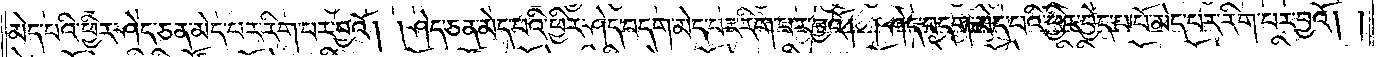མེད་པའི་ཕྱིར་ཤེད་ཅན་མེད་པར་རིག་པར་བྱའོ། །ཤེད་ཅན་མེད་པའི་ཕྱིར་ཤེད་བདག་མེད་པར་རིག་པར་བྱའོ། །ཤེད་བདག་མེད་པའི་ཕྱིར་བྱེད་པ་པོ་མེད་པར་རིག་པར་བྱའོ། །
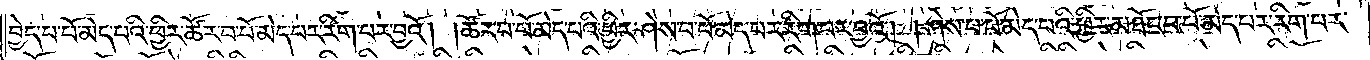བྱེད་པ་པོ་མེད་པའི་ཕྱིར་ཚོར་བ་པོ་མེད་པར་རིག་པར་བྱའོ། །ཚོར་བ་པོ་མེད་པའི་ཕྱིར་ཤེས་པ་པོ་མེད་པར་རིག་པར་བྱའོ། །ཤེས་པ་པོ་མེད་པའི་ཕྱིར་མཐོང་བ་པོ་མེད་པར་རིག་པར་
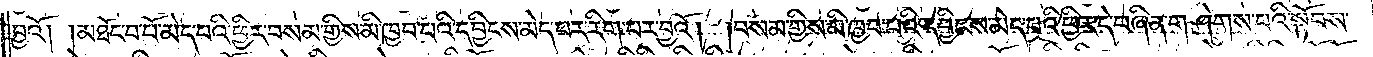བྱའོ། །མཐོང་བ་པོ་མེད་པའི་ཕྱིར་བསམ་གྱིས་མི་ཁྱབ་པའི་དབྱིངས་མེད་པར་རིག་པར་བྱའོ། །བསམ་གྱིས་མི་ཁྱབ་པའི་དབྱིངས་མེད་པའི་ཕྱིར་དེ་བཞིན་གཤེགས་པའི་སྟོབས་
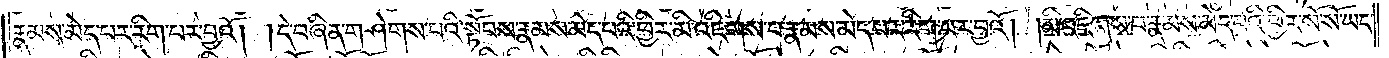རྣམས་མེད་པར་རིག་པར་བྱའོ། །དེ་བཞིན་གཤེགས་པའི་སྟོབས་རྣམས་མེད་པའི་ཕྱིར་མི་འཇིགས་པ་རྣམས་མེད་པར་རིག་པར་བྱའོ། །མི་འཇིགས་པ་རྣམས་མེད་པའི་ཕྱིར་སོ་སོ་ཡང་
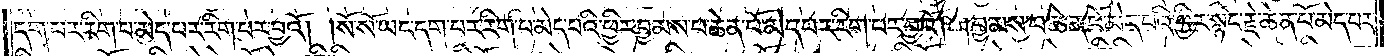དག་པར་རིག་པ་མེད་པར་རིག་པར་བྱའོ། །སོ་སོ་ཡང་དག་པར་རིག་པ་མེད་པའི་ཕྱིར་བྱམས་པ་ཆེན་པོ་མེད་པར་རིག་པར་བྱའོ། །བྱམས་པ་ཆེན་པོ་མེད་པའི་ཕྱིར་སྙིང་རྗེ་ཆེན་པོ་མེད་པར་
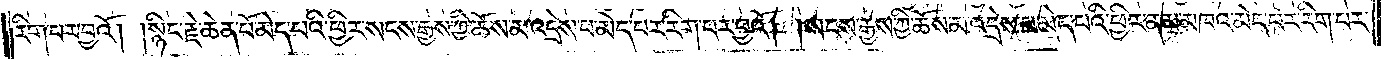རིག་པར་བྱའོ། །སྙིང་རྗེ་ཆེན་པོ་མེད་པའི་ཕྱིར་སངས་རྒྱས་ཀྱི་ཆོས་མ་འདྲེས་པ་མེད་པར་རིག་པར་བྱའོ། །སངས་རྒྱས་ཀྱི་ཆོས་མ་འདྲེས་པ་མེད་པའི་ཕྱིར་ནམ་མཁའ་མེད་པར་རིག་པར་
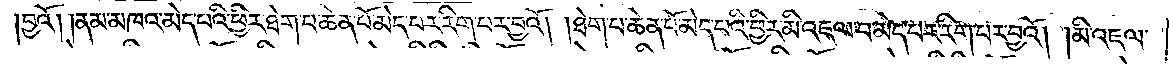བྱའོ། །ནམ་མཁའ་མེད་པའི་ཕྱིར་ཐེག་པ་ཆེན་པོ་མེད་པར་རིག་པར་བྱའོ། །ཐེག་པ་ཆེན་པོ་མེད་པའི་ཕྱིར་མི་འཇལ་བ་མེད་པར་རིག་པར་བྱའོ། །མི་འཇལ་
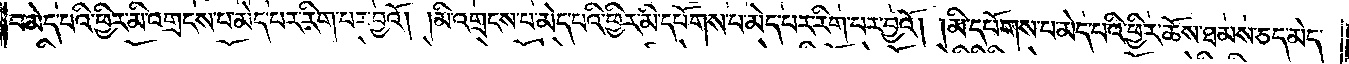བ་མེད་པའི་ཕྱིར་མི་འགྲངས་པ་མེད་པར་རིག་པར་བྱའོ། །མི་འགྲངས་པ་མེད་པའི་ཕྱིར་མི་དཔོགས་པ་མེད་པར་རིག་པར་བྱའོ། །མི་དཔོགས་པ་མེད་པའི་ཕྱིར་ཆོས་ཐམས་ཅད་མེད་
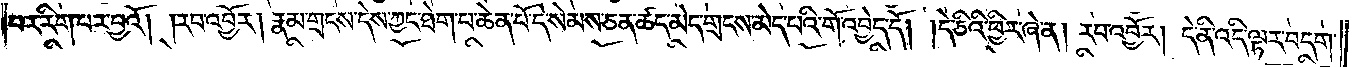པར་རིག་པར་བྱའོ། །རབ་འབྱོར། རྣམ་གྲངས་དེས་ཀྱང་ཐེག་པ་ཆེན་པོ་དེ་སེམས་ཅན་ཚད་མེད་གྲངས་མེད་པའི་གོ་འབྱེད་དོ། །དེ་ཅིའི་ཕྱིར་ཞེ་ན། རབ་འབྱོར། དེ་ནི་འདི་ལྟར་བདག་
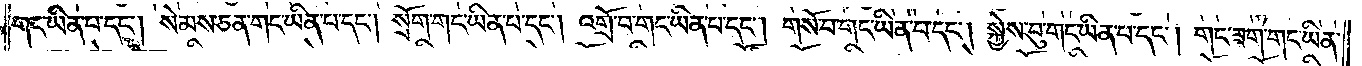གང་ཡིན་པ་དང༌། སེམས་ཅན་གང་ཡིན་པ་དང༌། སྲོག་གང་ཡིན་པ་དང༌། འགྲོ་བ་གང་ཡིན་པ་དང༌། གསོ་བ་གང་ཡིན་པ་དང༌། སྐྱེས་བུ་གང་ཡིན་པ་དང༌། གང་ཟག་གང་ཡིན་
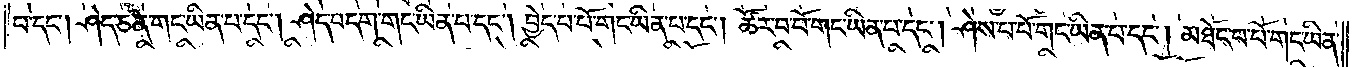པ་དང༌། ཤེད་ཅན་གང་ཡིན་པ་དང༌། ཤེད་བདག་གང་ཡིན་པ་དང༌། བྱེད་པ་པོ་གང་ཡིན་པ་དང༌། ཚོར་བ་པོ་གང་ཡིན་པ་དང༌། ཤེས་པ་པོ་གང་ཡིན་པ་དང༌། མཐོང་པོ་གང་ཡིན་
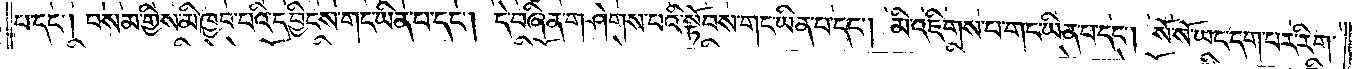པ་དང༌། བསམ་གྱིས་མི་ཁྱབ་པའི་དབྱིངས་གང་ཡིན་པ་དང༌། དེ་བཞིན་གཤེགས་པའི་སྟོབས་གང་ཡིན་པ་དང༌། མི་འཇིགས་པ་གང་ཡིན་པ་དང༌། སོ་སོ་ཡང་དག་པར་རིག་
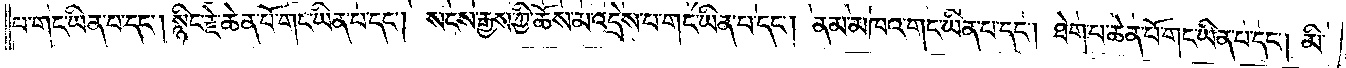པ་གང་ཡིན་པ་དང༌། སྙིང་རྗེ་ཆེན་པོ་གང་ཡིན་པ་དང༌། སངས་རྒྱས་ཀྱི་ཆོས་མ་འདྲེས་པ་གང་ཡིན་པ་དང༌། ནམ་མཁའ་གང་ཡིན་པ་དང༌། ཐེག་པ་ཆེན་པོ་གང་ཡིན་པ་དང༌། མི་
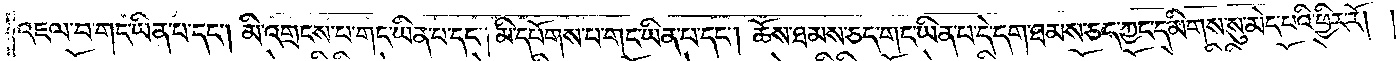འཇལ་བ་གང་ཡིན་པ་དང༌། མི་འགྲངས་པ་གང་ཡིན་པ་དང༌། མི་དཔོགས་པ་གང་ཡིན་པ་དང༌། ཆོས་ཐམས་ཅད་གང་ཡིན་པ་དེ་དག་ཐམས་ཅད་ཀྱང་དམིགས་སུ་མེད་པའི་ཕྱིར་རོ། །
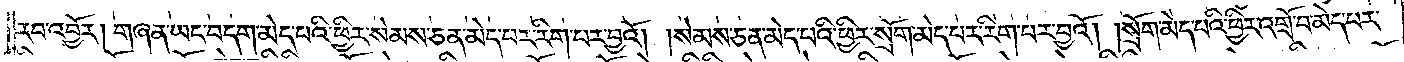རབ་འབྱོར། གཞན་ཡང་བདག་མེད་པའི་ཕྱིར་སེམས་ཅན་མེད་པར་རིག་པར་བྱའོ། །སེམས་ཅན་མེད་པའི་ཕྱིར་སྲོག་མེད་པར་རིག་པར་བྱའོ། །སྲོག་མེད་པའི་ཕྱིར་འགྲོ་བ་མེད་པར་
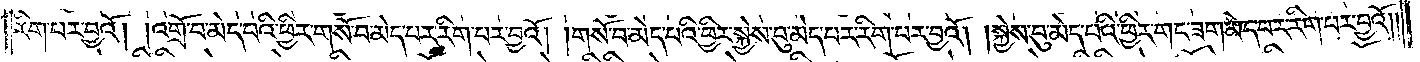རིག་པར་བྱའོ། །འགྲོ་བ་མེད་པའི་ཕྱིར་གསོ་བ་མེད་པར་རིག་པར་བྱའོ། །གསོ་བ་མེད་པའི་ཕྱིར་སྐྱེས་བུ་མེད་པར་རིག་པར་བྱའོ། །སྐྱེས་བུ་མེད་པའི་ཕྱིར་གང་ཟག་མེད་པར་རིག་པར་བྱའོ། །
